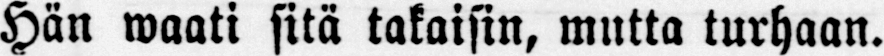Hän waati sitä takaisin, mutta turhaan.
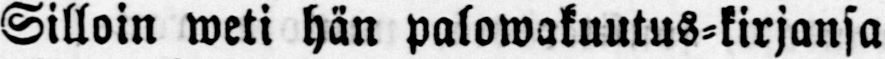Silloin weti hän palowakuutus-kirjansa
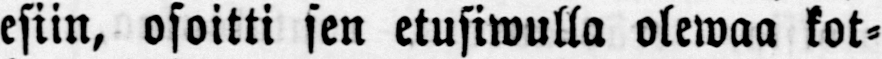esiin, osoitti sen etusiwulla olewaa kot-
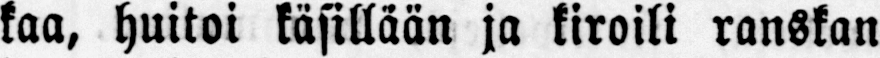kaa, huitoi käsillään ja kiroili ranskan
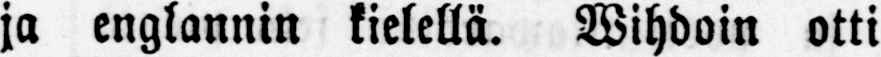ja englannin kielellä. Wihdoin otti
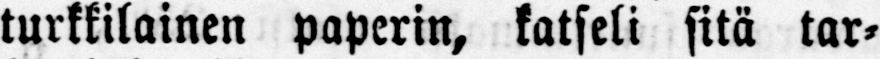turkkilainen paperin, katseli sitä tar-
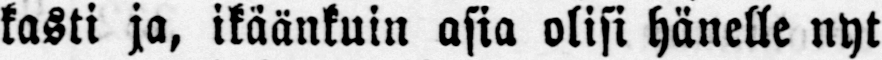kasti ja, ikäänkuin asia olisi hänelle nyt
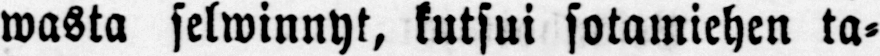wasta selwinnyt, kutsui sotamiehen ta-
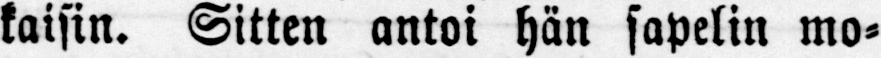kaisin. Sitten antoi hän sapelin mo-
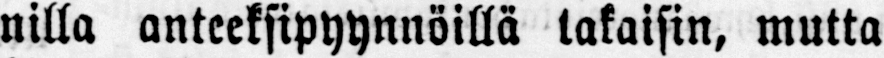nilla anteeksipyynnöillä takaisin, mutta
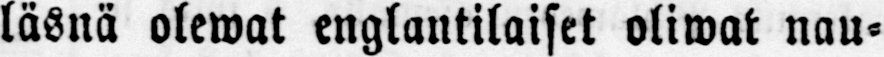läsnä olewat englantilaiset oliwat nau-
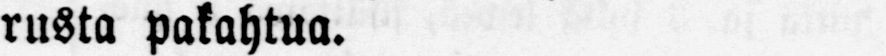rusta pakahtua.
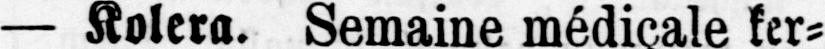— Kolera. Semaine médiçale ker-
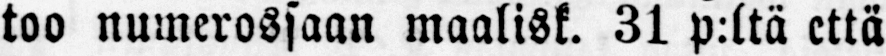too numerossaan maalisk. 31 p:ltä että
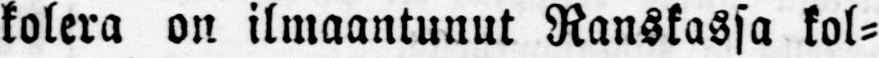kolera on ilmaantunut Ranskassa kol-
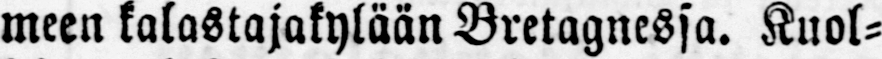meen kalastajakylään Bretagnessa. Kuol-
